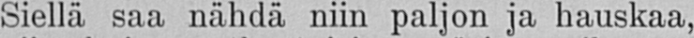Siellä saa nähdä niin paljon ja hauskaa,
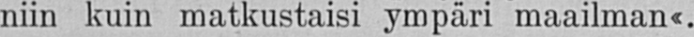niin kuin matkustaisi ympäri maailman«.
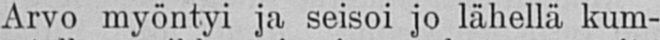Arvo myöntyi ja seisoi jo lähellä kum-
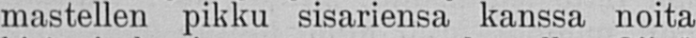mastellen pikku sisariensa kanssa noita
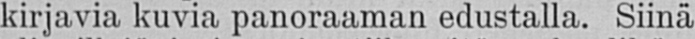kirjavia kuvia panoraaman edustalla. Siinä
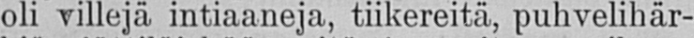oli villejä intiaaneja, tiikereitä, puhvelihär-
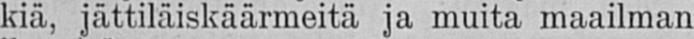kiä, jättiläiskäärmeitä ja muita maailman
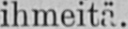ihmeitä.
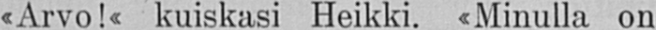«Arvo!« kuiskasi Heikki. «Minulla on
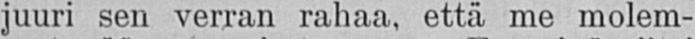juuri sen verran rahaa, että me molem-
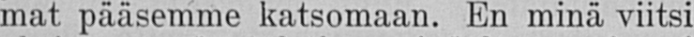mat pääsemme katsomaan. En minä viitsi
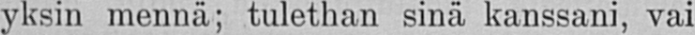yksin mennä; tulethan sinä kanssani, vai
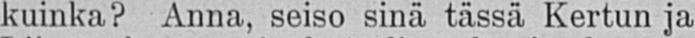kuinka? Anna, seiso sinä tässä Kertun ja
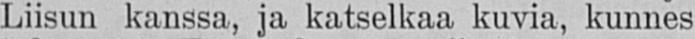Liisun kanssa, ja katselkaa kuvia, kunnes
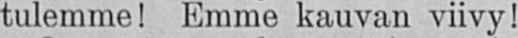tulemme! Emme kauvan viivy!
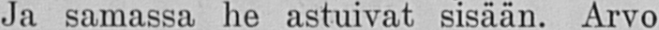Ja samassa he astuivat sisään. Arvo
